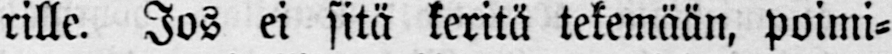rille. Jos ei sitä keritä tekemään, poimi-
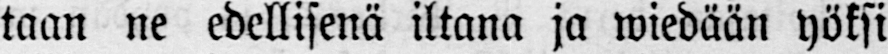taan ne edellisenä iltana ja wiedään yöksi
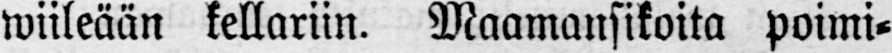wiileään kellariin. Maamansikoita poimi-
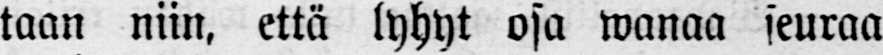taan niin, että lyhyt osa wanaa seuraa
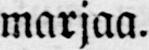marjaa.
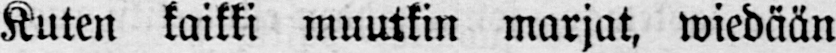Kuten kaikki muutkin marjat, wiedään
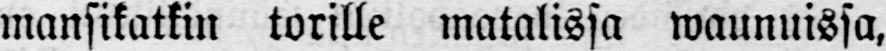mansikatkin torille matalissa waunuissa,
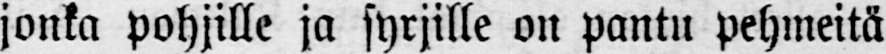jonka pohjille ja syrjille on pantu pehmeitä
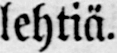lehtiä.
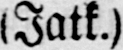(Jatk.)
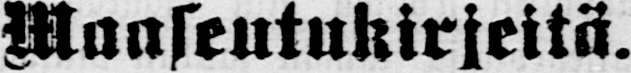Maaseutukirjeitä.
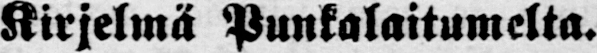Kirjelmä Punkalaitumelta.
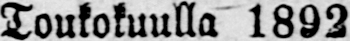Toukokuulla 1892.
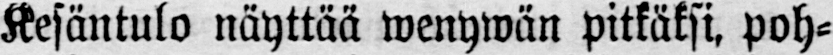Kesäntulo näyttää wenywän pitkäksi, poh-
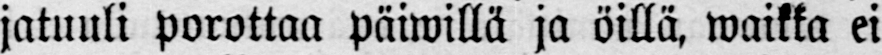jatuuli porottaa päiwillä ja öillä, waikka ei
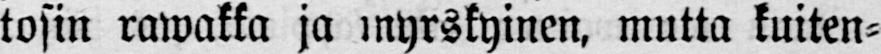tosin rawakka ja myrskyinen, mutta kuiten-
